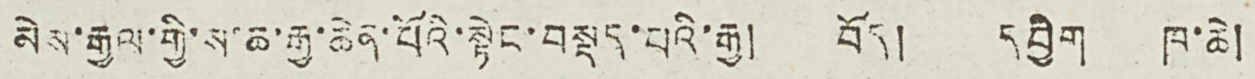མེས་རྒྱལ་གྱི་ས་ཆ་རྒྱ་ཆེན་པོའི་སྟེང་བསྡད་པའི་རྒྱ། བོད། དབྱིག ཁ་ཆེ།
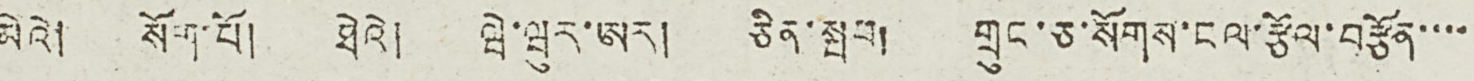མེའེ། སོག་པོ། ཐེའེ། ཝེ་ཝུར་ཨར། ཅིན་སྤབ། གྲུང་ཅ་སོགས་ངལ་རྩོལ་བརྩོན་་་་
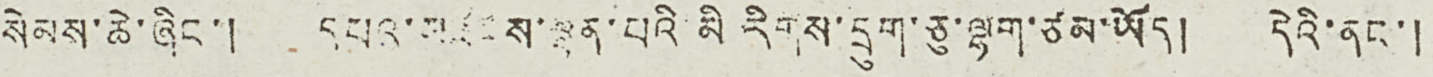སེམས་ཆེ་ཞིང་། དཔའ་མཛངས་ལྡན་པའི་མི་རིགས་དྲུག་ཅུ་ལྷག་ཙམ་ཡོད། དེའི་ནང་།
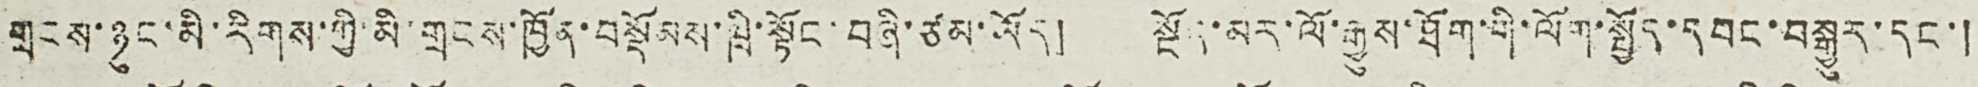གྲངས་ཉུང་མི་རིགས་ཀྱི་མི་གྲངས་ཁྱོན་བསྡོམས་ཁྲི་སྟོང་བཞི་ཙམ་ཡོད། སྔོན་མར་ལོ་རྒྱུས་ཐོག་གི་ལོག་སྤྱོད་དབང་བསྒྱུར་དང་།
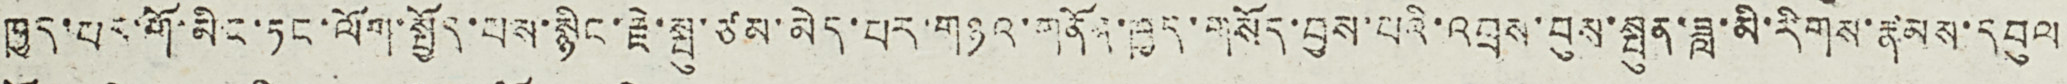ཁྱད་པར་གོ་མིང་ཏང་ལོག་སྤྱོད་པས་སྙིང་རྗེ་སྤུ་ཙམ་མེད་པར་གཉའ་གནོན་ཁྱད་གསོད་བྱས་པའི་འབྲས་བུས་སྤུན་ཟླ་མི་རིགས་དབུལ
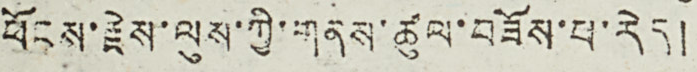ཕོངས་རྗེས་ལུས་ཀྱི་གནས་ཚུལ་བཟོས་པ་རེད།
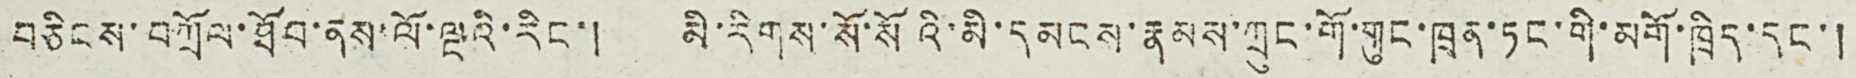བཅིངས་བཀྲོལ་ཐོབ་ནས་ལོ་ལྔའི་རིང་། མི་རིགས་སོ་སོའི་མི་དམངས་རྣམས་ཀྲུང་གོ་གུང་ཁྲན་ཏང་གི་མགོ་ཁྲིད་དང་།
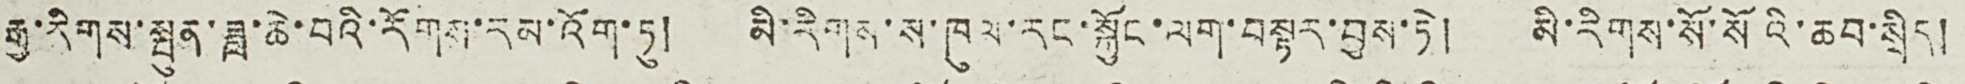རྒྱ་རིགས་སྤུན་ཟླ་ཆེ་བའི་རོགས་རམ་འོག་ཏུ། མི་རིགས་ས་ཁུལ་རང་སྐྱོང་ལག་བསྟར་བྱས་ཏེ། མི་རིགས་སོ་སོའི་ཆབ་སྲིད།
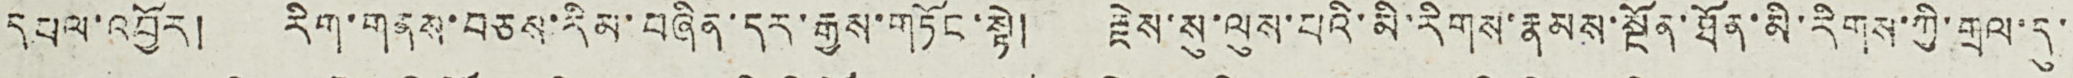དཔལ་འབྱོར། རིག་གནས་བཅས་རིམ་བཞིན་དར་རྒྱས་གཏོང་སྟེ། རྗེས་སུ་ལུས་པའི་མི་རིགས་རྣམས་སྔོན་ཐོན་མི་རིགས་ཀྱི་གྲལ་དུ་
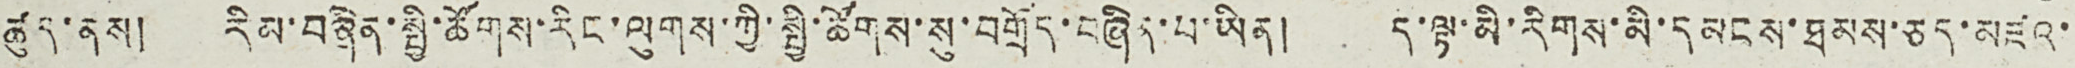ཚུད་ནས། རིམ་བཞིན་སྤྱི་ཚོགས་རིང་ལུགས་ཀྱི་སྤྱི་ཚོགས་སུ་བགྲོད་བཞིན་པ་ཡིན། ད་ལྟ་མི་རིགས་མི་དམངས་ཐམས་ཅད་མཛའ་
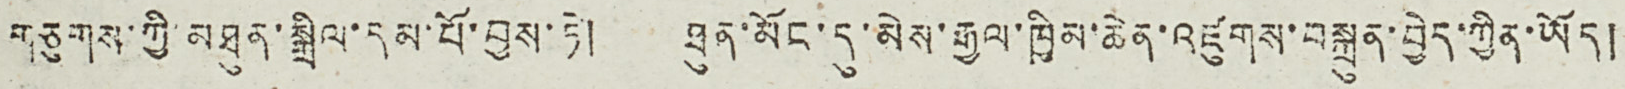གཅུགས་ཀྱི་མཐུན་སྒྲིལ་དམ་པོ་བྱས་ཏེ། ཐུན་མོང་དུ་མེས་རྒྱལ་ཁྱིམ་ཆེན་འཛུགས་བསྐྲུན་བྱེད་ཀྱིན་ཡོད།
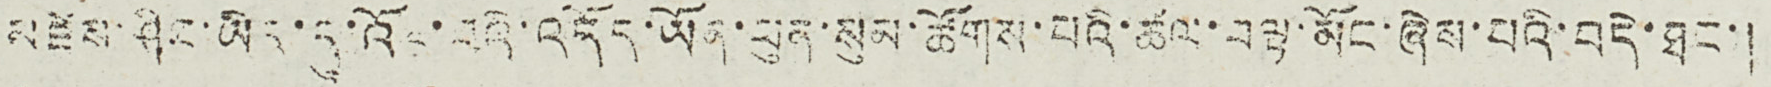མཛེས་ཤིང་ཡིད་དུ་འོང་བའི་འདོད་ཡོན་ཕུན་སུམ་ཚོགས་པའི་ཚལ་བལྟ་མོང་ཞེས་པའི་བདེ་ཐང་།
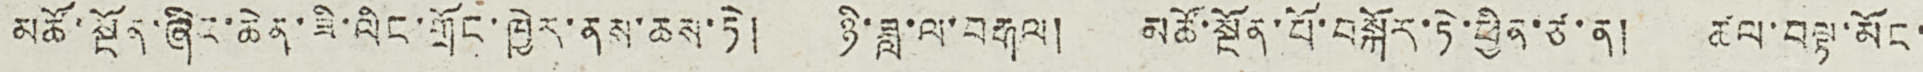མཚོ་སྔོན་ཞིང་ཆེན་ཟི་ལིང་གྲོང་ཁྱེར་ནས་ཆས་ཏེ། ཉི་ཟླ་ལ་བརྒལ། མཚོ་སྔོན་པོ་བསྐོར་ཏེ་ཕྱིན་ཙ་ན། ཚལ་བལྟ་མོང་
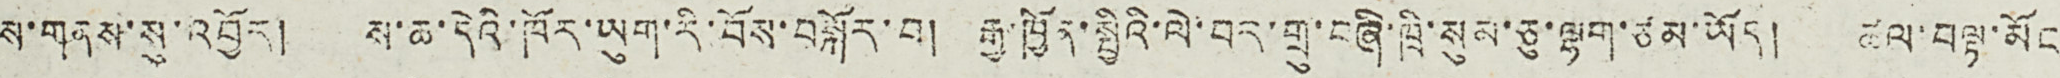ས་གནས་སུ་འབྱོར། ས་ཆ་དེའི་ཁོར་ཡུག་རི་བོས་བསྐོར་བ། རྒྱ་ཁྱོན་སྤྱིའི་ལེ་བར་གྲུ་བཞི་ཁྲི་སུམ་ཅུ་ལྷག་ཙམ་ཡོད། ཚལ་བལྟ་མོང
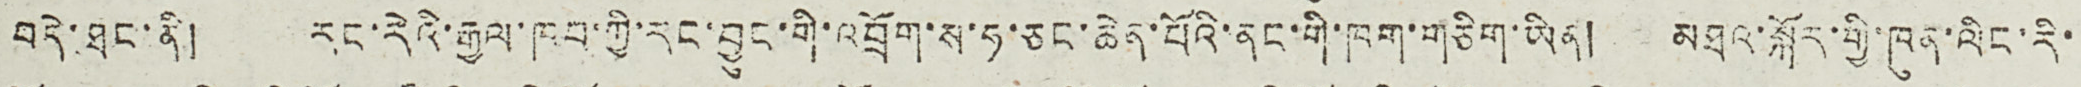བདེ་ཐང་ནི། རང་རེའི་རྒྱལ་ཁབ་ཀྱི་རང་བྱུང་གི་འབྲོག་ས་ཧ་ཅང་ཆེན་པོའི་ནང་གི་ཁག་གཅིག་ཡིན། མཐའ་སྐོར་གྱི་ཁུན་ལིང་རི་
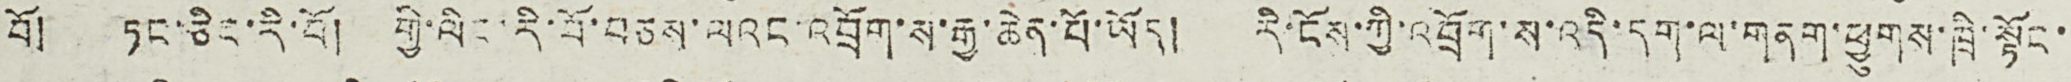བོ། ཏང་ཅིང་རི་བོ། གྱི་ལིང་རི་བོ་བཅས་ལའང་འབྲོག་ས་རྒྱ་ཆེན་པོ་ཡོད། རི་ངོས་ཀྱི་འབྲོག་ས་འདི་དག་ལ་གནག་ཕྱུགས་ཁྲི་སྟོང་
